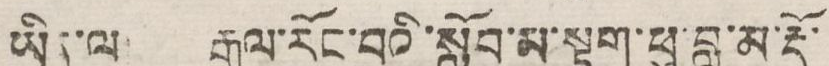ཡིན་ལ། རྒྱལ་རོང་བའི་སློབ་མ་སྟག་ཕུ་བླ་མ་རྡོ་
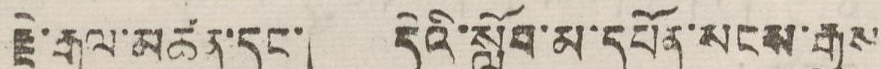རྗེ་རྒྱལ་མཚན་དང་། དེའི་སློབ་མ་དཔོན་སངས་རྒྱས
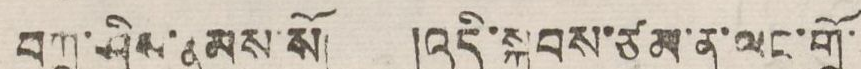བཀྲ་ཤིས་རྣམས་སོ། །འདི་སྐབས་ཙམ་ན་ལང་གྲོ་
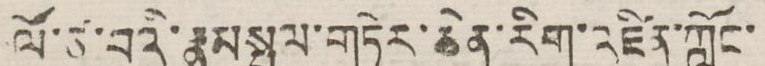ལོ་ཙ་བའི་རྣམ་སྤྲུལ་གཏེར་ཆེན་རིག་འཛིན་ཀློང་
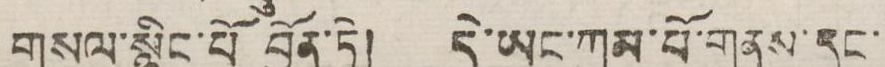གསལ་སྙིང་པོ བྱོན་ཏེ། དེ་ཡང་ཀམ་པོ་གནས་དང་
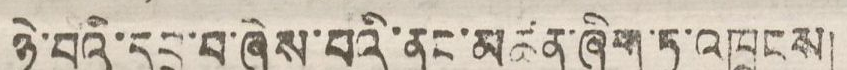ཉེ་བའི་དབྲ་བ་ཞེས་པའི་ནང་མཚན་ཞིག་ཏུ་འཁྲུངས།
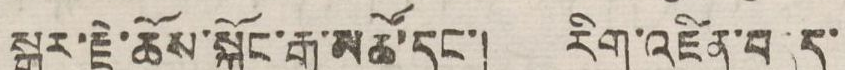སྒར་རྗེ་ཆོས་སྐྱོང་རྒྱ་མཚོ་དང་། རིག་འཛིན་བདུད་
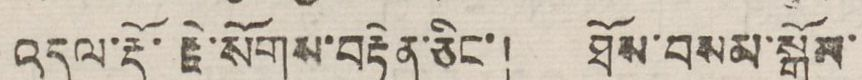འདུལ་རྡོ་རྗེ་སོགས་བརྟེན་ཅིང་། ཐོས་བསམ་སྒོམ་
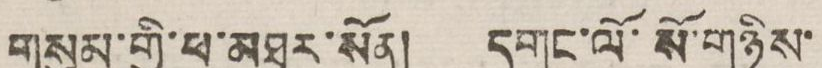གསུམ་གྱི་ཕ་མཐར་སོན། དགུང་ལོ་སོ་གཉིས་
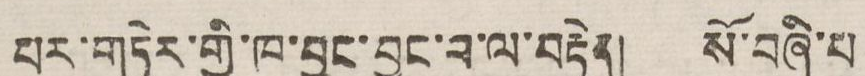པར་གཏེར་གྱི་ཁ་བྱང་བྱུང་བ་ལ་བརྟེན། སོ་བཞི་པ
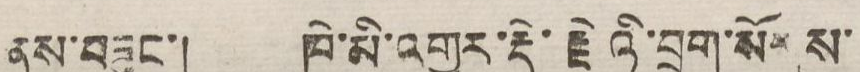ནས་བཟུང་། ཁི་མི་འགྱུར་རྡོ་རྗེའི་བྲག་སོགས་
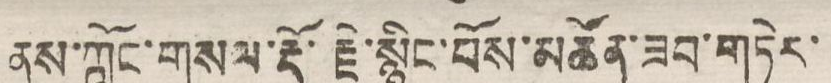ནས་ཀློང་གསལ་རྡོ་རྗེ་སྙིང་པོས་མཚོན་ཟབ་གཏེར་
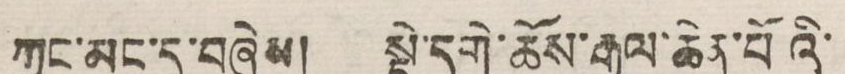ཀྱང་མང་དུ་བཞེས། སྡེ་དགེ་ཆོས་རྒྱལ་ཆེན་པོའི་
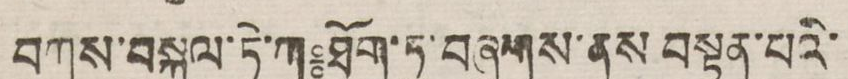བཀས་བསྐུལ་ཏེ་ཀ༔ཐོག་ཏུ་བཞུགས་ནས བསྟན་པའི་
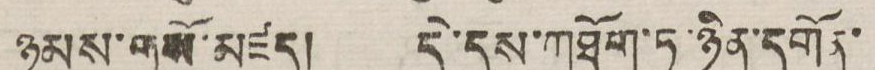ཉམས་གསོ་མཛད། དེ་དུས་ཀཐོག་ཏུ་ཉིན་དགོན་
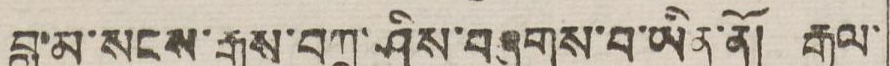བླ་མ་སངས་རྒྱས་བཀྲ་ཤིས་བཞུགས་པ་ཡིན་ནོ། རྒྱལ་
